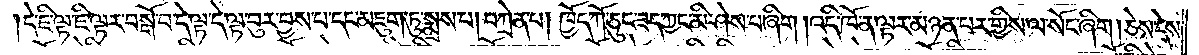།དེ་ཇི་ལྟ་ཇི་ལྟར་བསྒོ་བ་དེ་ལྟ་དེ་ལྟ་བུར་བྱས་པ་དང་མཇུག་ཏུ་སྨྲས་པ། བཀྲེན་པ། ཁྱོད་ཀོ་ཅུང་ཟད་ཀྱང་མི་ཤེས་པ་ཞིག །འདི་ཁོ་ན་ལྟར་མཉན་པར་གྱིས་ལ་སོང་ཞིག །ཅེས་དེས་
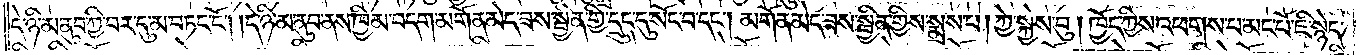དེ་ཉི་མ་ནུབ་ཀྱི་བར་དུ་མ་བཏང་ངོ༌། །དེ་ཉིད་མ་ནུབ་ནས་ཁྱིམ་བདག་མགོན་མེད་ཟས་སྦྱིན་གྱི་དྲུང་དུ་སོང་བ་དང༌། མགོན་མེད་ཟས་སྦྱིན་གྱིས་སྨྲས་པ། ཀྱེ་སྐྱེས་བུ། ཁྱོད་ཀྱིས་འཕགས་པ་མང་པོ་ཇི་སྙེད་
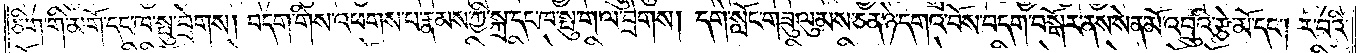ཅིག་གི་མགོ་དང་ཁ་སྤུ་བྲེགས། བདག་གིས་འཕགས་པ་རྣམས་ཀྱི་སྐྲ་དང་ཁ་སྤུ་ག་ལ་བྲེགས། དགེ་སློང་གཟུ་ལུམས་ཅན་ཉེ་དགའ་བོས་བདག་བསྒོར་ནས་སེན་མོ་འབྲུའི་རྩེ་མོ་དང༌། ར་བའི་
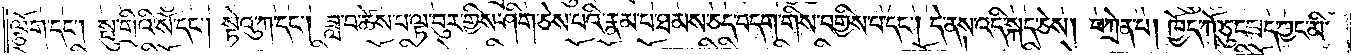ལྕོག་དང༌། སྤུ་གྲིའི་སོ་དང༌། སྟེའུ་ཀ་དང༌། ཟླ་བ་ཚེས་པ་ལྟ་བུར་གྱིས་ཤིག་ཅེས་པའི་རྣམ་པ་ཐམས་ཅད་བདག་གིས་བགྱིས་པ་དང༌། དེ་ནས་འདི་སྐད་ཅེས། བཀྲེན་པ། ཁྱོད་ཀོ་ཅུང་ཟད་ཀྱང་མི་
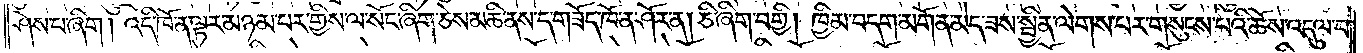ཤེས་པ་ཞིག། འདི་ཁོ་ན་ལྟར་མཉམ་པར་གྱིས་ལ་སོང་ཞིག་ཅེས་མཆི་ནས་ད་གཟོད་ཁོ་ན་ཤོར་ན། ཅི་ཞིག་བགྱི། ཁྱིམ་བདག་མགོན་མེད་ཟས་སྦྱིན་ལེགས་པར་གསུངས་པའི་ཆོས་འདུལ་བ་
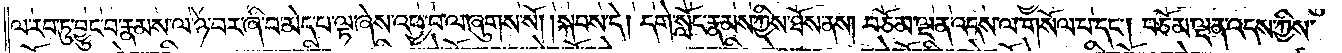ལ་རབ་ཏུ་བྱུང་བ་རྣམས་ལ་ཉེ་བར་ཞི་བ་མེད་པ་ལྟ་ཞེས་འཕྱ་བ་ལ་ཞུགས་སོ། །སྐབས་དེ། དགེ་སློང་རྣམས་ཀྱིས་ཐོས་ནས། བཅོམ་ལྡན་འདས་ལ་གསོལ་པ་དང༌། བཅོམ་ལྡན་འདས་ཀྱིས་
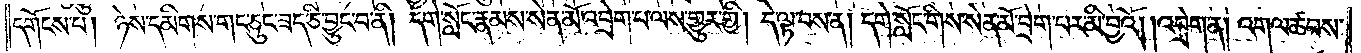དགོངས་པ། ཉེས་དམིགས་གང་ཅུང་ཟད་ཅི་བྱུང་བ་ནི། དགེ་སློང་རྣམས་སེན་མོ་འབྲེག་པ་ལས་གྱུར་གྱི། དེ་ལྟ་བས་ན། དགེ་སློང་གིས་སེན་མོ་བྲེག་པར་མི་བྱའོ། །འབྲེག་ན། འགལ་ཚབས་
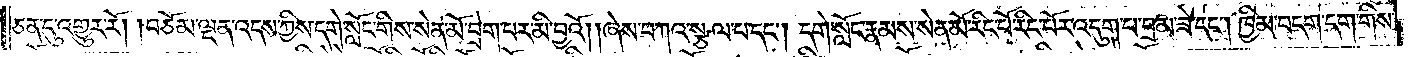ཅན་དུ་འགྱུར་རོ། །བཅོམ་ལྡན་འདས་ཀྱིས་དགེ་སློང་གིས་སེན་མོ་བྲེག་པར་མི་བྱའོ། །ཞེས་བཀའ་སྩལ་པ་དང༌། དགེ་སློང་རྣམས་སེན་མོ་རིང་པོ་རིང་པོར་འདུག་པ་བྲམ་ཟེ་དང༌། ཁྱིམ་བདག་དག་གིས་
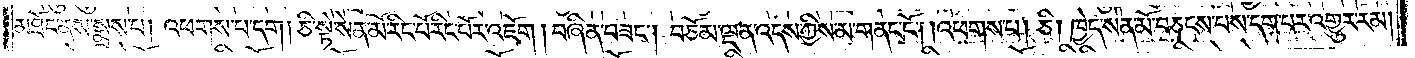མཐོང་ནས་སྨྲས་པ། འཕགས་པ་དག། ཅི་སྟེ་སེན་མོ་རིང་པོ་རིང་པོར་འཇོག །བཞིན་བཟང༌། བཅོམ་ལྡན་འདས་ཀྱིས་མ་གནང་ངོ༌། །འཕགས་པ། ཅི། ཁྱེད་སེན་མོ་བཅངས་པས་དག་པར་འགྱུར་རམ།
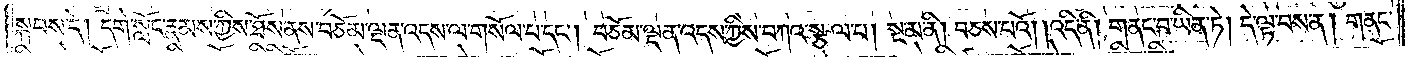སྐབས་དེ། དགེ་སློང་རྣམས་ཀྱིས་ཐོས་ནས་བཅོམ་ལྡན་འདས་ལ་གསོལ་པ་དང༌། བཅོམ་ལྡན་འདས་ཀྱིས་བཀའ་སྩལ་པ། སྔ་མ་ནི། བཅས་པའོ། །འདི་ནི། གནང་བ་ཡིན་ཏེ། དེ་ལྟ་བས་ན། གནང་
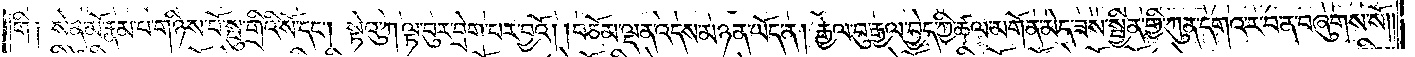གི། སེན་མོ་རྣམ་པ་གཉིས་པོ་སྤུ་གྲིའི་སོ་དང༌། སྟེའུ་ཀ་ལྟ་བུར་བྲེག་པར་བྱའོ། །བཅོམ་ལྡན་འདས་མཉན་ཡོད་ན། རྒྱལ་བུ་རྒྱལ་བྱེད་ཀྱི་ཚལ་མགོན་མེད་ཟས་སྦྱིན་གྱི་ཀུན་དགའ་ར་བ་ན་བཞུགས་སོ༎
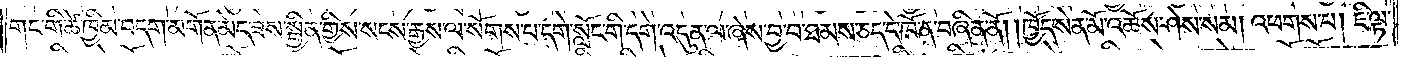གང་གི་ཚེ་ཁྱིམ་བདག་མགོན་མེད་ཟས་སྦྱིན་གྱིས་སངས་རྒྱས་ལ་སོགས་པ་དགེ་སློང་གི་དགེ་འདུན་ལ་ཞེས་བྱ་བ་ཐམས་ཅད་དེ་ཁོ་ན་བཞིན་ནོ། །ཁྱོད་སེན་མོ་འཆོས་ཤེས་སམ། འཕགས་པ། ཇི་ལྟ་
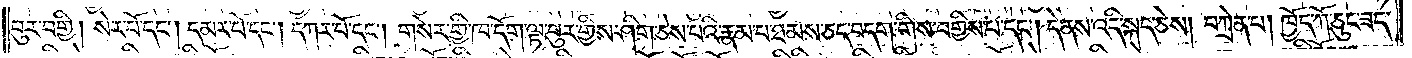བུར་བགྱི། སེར་པོ་དང༌། དམར་པོ་དང༌། དཀར་པོ་དང༌། གསེར་གྱི་ཁ་དོག་ལྟ་བུར་གྱིས་ཤིག་ཅེས་པའི་རྣམ་པ་ཐམས་ཅད་བདག་གིས་བགྱིས་པ་དང༌། དེ་ནས་འདི་སྐད་ཅེས། བཀྲེན་པ། ཁྱོད་ཀོ་ཅུང་ཟད་
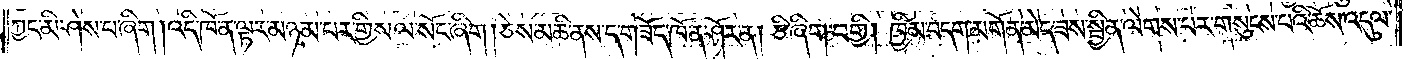ཀྱང་མི་ཤེས་པ་ཞིག །འདི་ཁོ་ན་ལྟར་མཉམ་པར་གྱིས་ལ་སོང་ཞིག །ཅེས་མཆི་ནས་ད་གཟོད་ཁོ་ན་ཤོར་ན། ཅི་ཞིག་བགྱི། ཁྱིམ་བདག་མགོན་མེད་ཟས་སྦྱིན་ལེགས་པར་གསུངས་པའི་ཆོས་འདུལ་
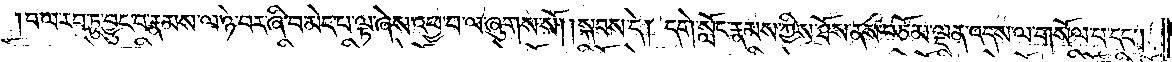བ་ལ་རབ་ཏུ་བྱུང་བ་རྣམས་ལ་ཉེ་བར་ཞི་བ་མེད་པ་ལྟ་ཞེས་འཕྱ་བ་ལ་ཞུགས་སོ། །སྐབས་དེ། དགེ་སློང་རྣམས་ཀྱིས་ཐོས་ནས་བཅོམ་ལྡན་འདས་ལ་གསོལ་པ་དང༌།
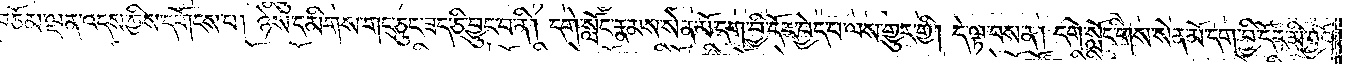བཅོམ་ལྡན་འདས་ཀྱིས་དགོངས་པ། ཉེས་དམིགས་གང་ཅུང་ཟད་ཅི་བྱུང་བ་ནི། དགེ་སློང་རྣམས་སེན་མོ་དག་བྱི་དོར་བྱེད་པ་ལས་གྱུར་གྱི། དེ་ལྟ་བས་ན། དགེ་སློང་གིས་སེན་མོ་དག་བྱི་དོར་མི་བྱའོ༎
